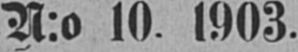N:o 10 1903.
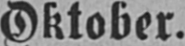Oktober.
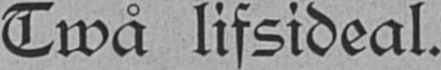Twå lifsideal.
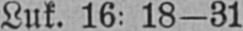Luk. 16: 18-31
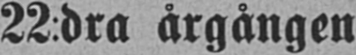22:dra årgången
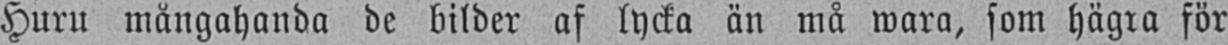Huru mångahanda de bilder af lycka än må wara, som hägra för
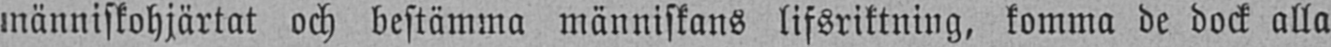människohjärtat och bestämma människans lifsriktning, komma de dock alla
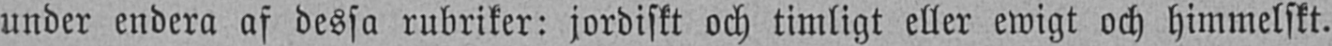under endera af dessa rubriker: jordiskt och timligt eller ewigt och himmelskt.
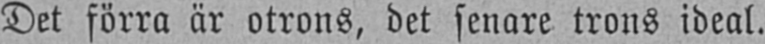Det förra är otrons, det senare trons ideal.
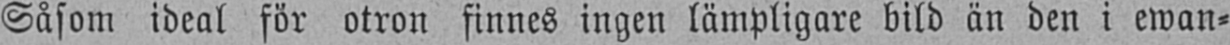Såsom ideal för otron finnes ingen lämpligare bild än den i ewan-
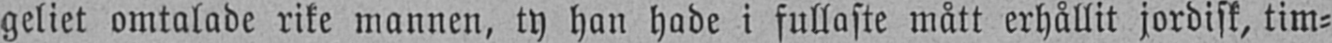geliet omtalade rike mannen, ty han hade i fullaste mått erhållit jordisk, tim-
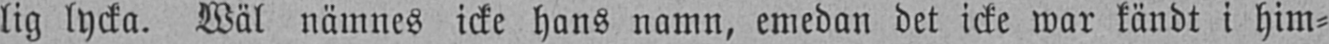lig lycka. Wäl nämnes icke hans namn, emedan det icke war kändt i him-
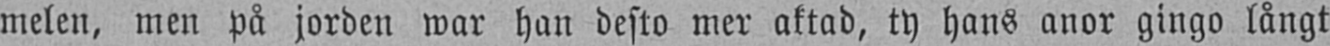melen, men på jorden war han desto mer aktad, ty hans anor gingo långt
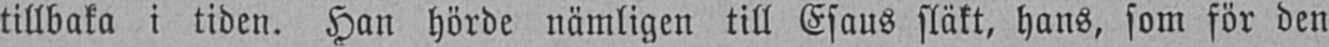tillbaka i tiden. Han hörde nämligen till Esaus släkt, hans, som för den
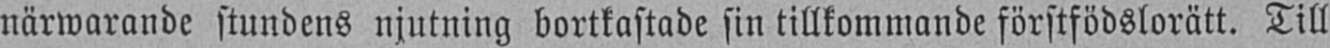närwarande stundens njutning bortkastade sin tillkommande förstfödslorätt. Till
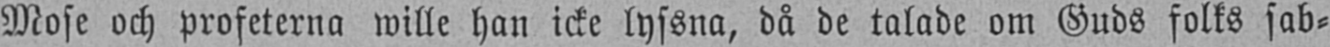Mose och profeterna wille han icke lyssna, då de talade om Guds folks sab-
